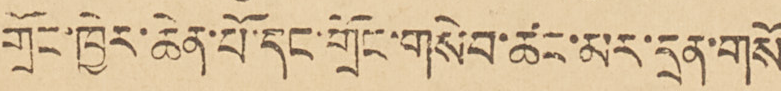གྲོང་ཁྱེར་ཆེན་པོ་དང་དྲོང་གསེབ་ཚང་མར་དྲན་གསོ་
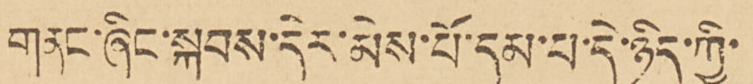གནང་ཞིང་སྐབས་དེར་མེས་པོ་དམ་པ་དེ་ཉིད་ཀྱི་
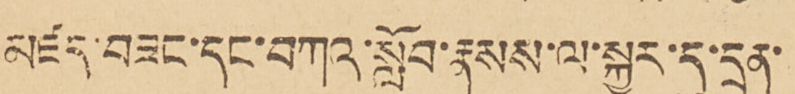མཛད་བཟང་དང་བཀའ་སློབ་རྣམས་ལ་སྐྱར་དུ་དྲན་
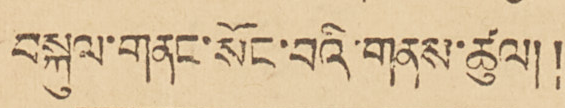བསྐུལ་གནང་སོང་བའི་གནས་ཚུལ།།
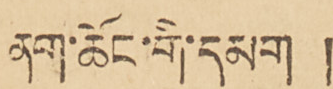ནང་ཆོང་གི་དམག །
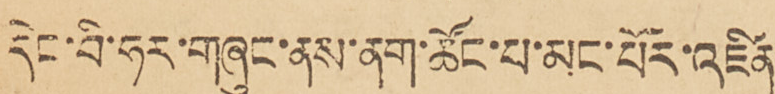དེང་བི་ཧར་གཞུང་ནས་ནག་ཚོང་པ་མང་པོར་འཛིན་
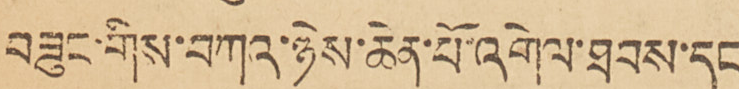བཟུང་གིས་བཀའ་ཉེས་ཆེན་པོ་འགེལ་ཐབས་དང་
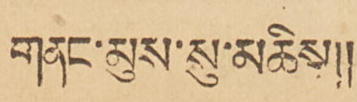གནང་མུས་སུ་མཆིས།།
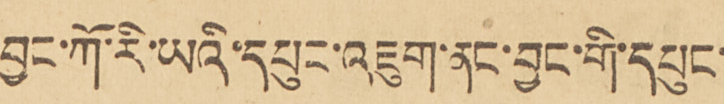བྱང་ཀོ་རི་ཡའི་དཔུང་འཇུག་ནང་བྱང་གི་དཔུང་
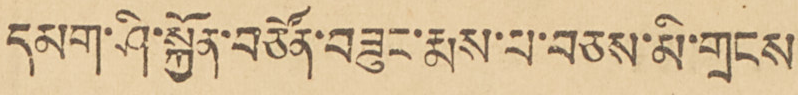དམག་ཤི་སྐྱོན་བཙོན་བཟུང་རྨས་པ་བཅས་མི་གྲངས་
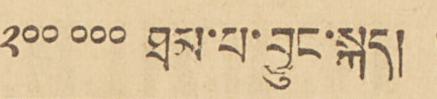༢༠༠ ༠༠༠ ཐམ་པ་བྱུང་སྐད། །
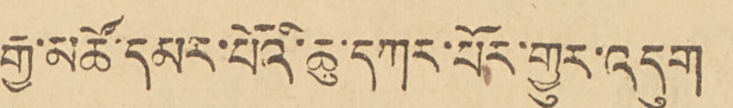རྒྱ་མཚོ་དམར་པོའི་ཆུ་དཀར་པོར་གྱུར་འདུག །
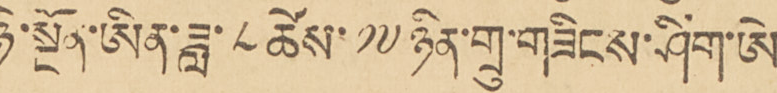ཉེ་སྔོན་ཨིན་ཟླ་ ༨ ཚེས་ ༡༧ ཉིན་གྲུ་གཟིངས་ཤིག་ཨེ་
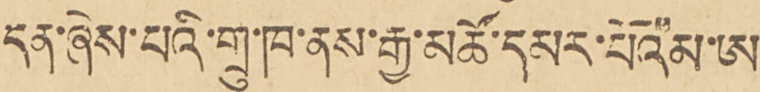དན་ཞེས་པའི་གྲུ་ཁ་ནས་རྒྱ་མཚོ་དམར་པོའམ་ཨ་
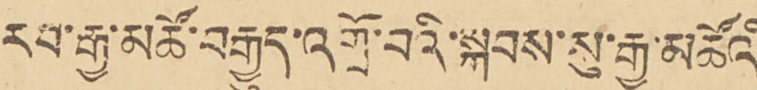རབ་རྒྱ་མཚོ་བརྒྱུད་འགྲོ་བའི་སྐབས་སུ་རྒྱ་མཚོའི་
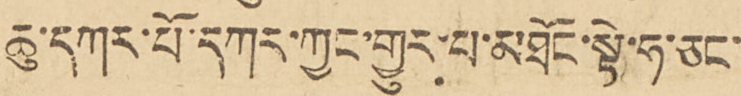ཆུ་དཀར་པོ་དཀར་ཀྱང་གྱུར་པ་མཐོང་སྟེ་ཧ་ཅང་
